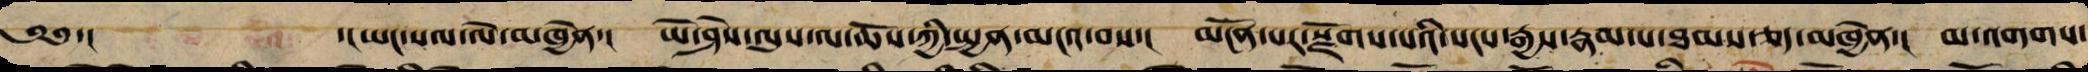༄༅་། ་།ཡང་སལ་ལེ་མཁྱེན་། ཡེ་ཤེས་ལུས་ལ་ཆོས་ཀྱི་སྤྱན་མངའ་བས་། མངོན་པར་སྫོགས་པའི་སངས་རྒྱས་རྣམ་པ་ཐམས་ཅད་མཁྱེན་། མ་འགགས་
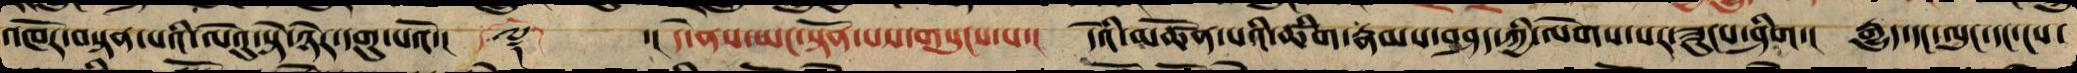འཁོར་བསྟན་པའི་ལེའུ་སྟེ་ཉེར་དགུ་པའོ་།། ༈ ་། དེ་ནས་ཡང་སྟོན་པས་གསུངས་པ་། དེའི་མཚོན་པའི་ཚིག་རྣམས་བཤད་ཀྱི་ལེགས་པར་ཟུངས་ཤིག་། རྒྱུད་དང་ལུང་དང་ངས་
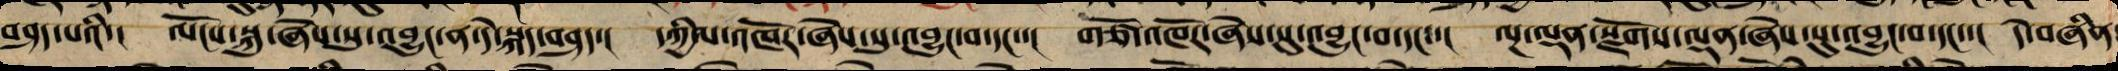བཤད་པའི་། ལོངས་སྐུ་ཞེས་སུ་འབྱུང་ན་དེ་སྐད་བཤད་། དཀྱིལ་འཁོར་ཞེས་སུ་འབྱུང་བ་དང་་། གཙོ་འཁོར་ཞེས་སུ་འབྱུང་བ་དང་་། ལྔ་ལྡན་སྫོགས་ལྡན་ཞེས་སུ་འབྱུང་བ་དང་་། དེ་བཞིན་
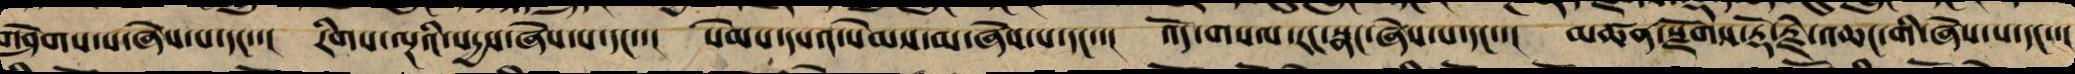གཤེགས་པ་ཞེས་པ་དང་་། རིགས་ལྔའི་སདྱས་ཞེས་པ་དང་་། སེམས་དཔའ་སེམས་མ་ཞེས་པ་དང་་། འོད་གསལ་རང་སྣང་ཞེས་པ་དང་་། མཚན་སྫོགས་རྡོ་རྗེ་འཆང་གིས་ཞེས་པ་དང་་།
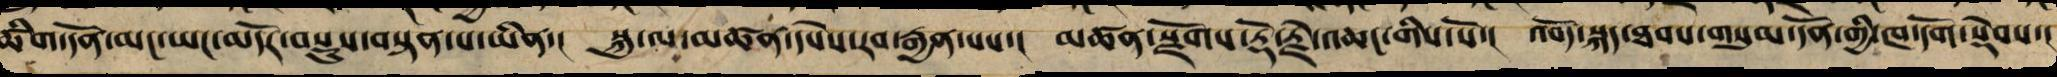ཚིག་དོན་མང་ཡང་མདོར་བསྡུས་བསྟན་པ་ཡིན་། སྐུ་ལ་མཚན་དཔེས་རབ་རྒྱན་པས་། མཚན་སྫོགས་རྡོ་རྗེ་འཆང་གིས་སོ་། འབོད་སྐད་ཐབས་གསུམ་དོན་གྱི་ཁ་དོག་སྡེབས་།
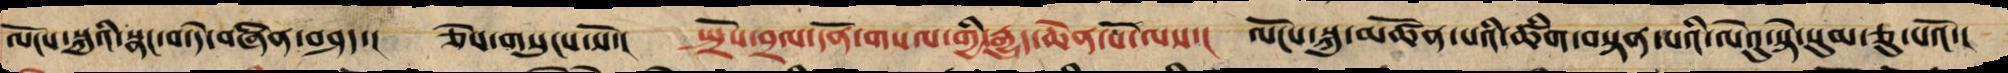ལོངས་སྐུའི་སྣང་བ་དེ་བཞིན་བཤད་། ཅེས་གསུངས་སོ་། སྤྲོས་བྲལ་དོན་གསལ་གྱི་རྒྱུད་ཆེན་པོ་ལས་། ལོངས་སྐུ་མཚོན་པའི་ཚིག་བསྟན་པའི་ལེའུ་སྟེ་སུམ་ཅུ་པའོ་།།
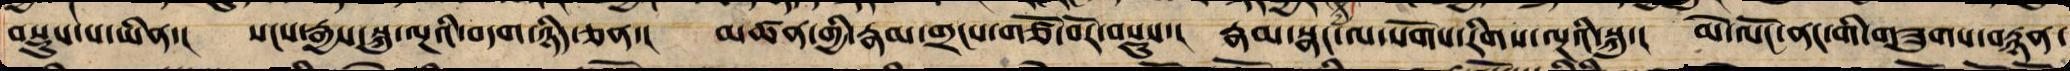བསྡུས་པ་ཡིན་། སངས་རྒྱས་སྐུ་ལྔའི་བདག་ཉིད་ཅན་། མཚན་གྱི་རྣམ་གྲངས་གཙོ་བོར་བསྡུས་། རྣམ་སྣང་ལ་སོགས་རིགས་ལྔའི་སྐུ་། མེ་ལོང་ནང་གི་གཟུགས་བརྙན་
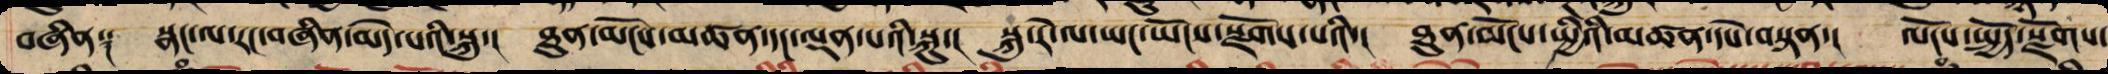བཞིན༑ སྣང་ལ་རང་བཞིན་མེད་པའི་སྐུ་། ཐུན་མོངས་མཚན་དང་ལྡན་པའི་སྐུ་། སྐུ་རེ་ལ་ཡང་ཡོངས་རྫོགས་པའི་། ཐུན་མོང་སྤྱིའི་མཚན་དཔེ་བསྟན་། ལོངས་སྤྱོད་སྫོགས་
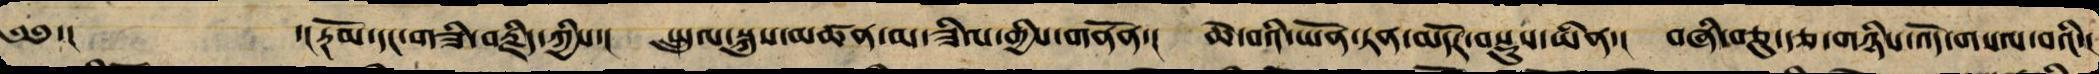༄༅་། ་།རྔོམ་དང་གཟི་བརྗིད་ཀྱིས་། སྤྲུལ་སྐུས་མཚན་མ་ཟིལ་གྱིས་གནོན་། ཆེ་བའི་ཡོན་ཏན་མདོར་བསྡུས་ཡིན་། བཞི་བཅུ་རྩ་གཉིས་འོད་གསལ་བའི་།
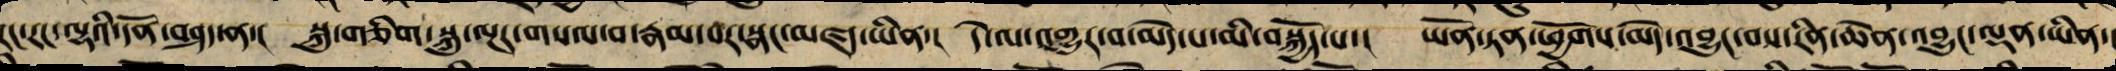རང་རང་ལྷའི་དོན་བཤད་ན་། སྐུ་གཅིག་སྐུ་ལྔར་གསལ་བ་རྣམ་པར་སྣང་མཛད་ཡིན་། དེ་ལ་འགྱུར་བ་མེད་པ་མི་བསྐྱོད་པ་། ཡོན་ཏན་ཕྱོགས་མེད་འབྱུང་བས་རིན་ཆེན་འབྱུང་ལྡན་ཡིན་།
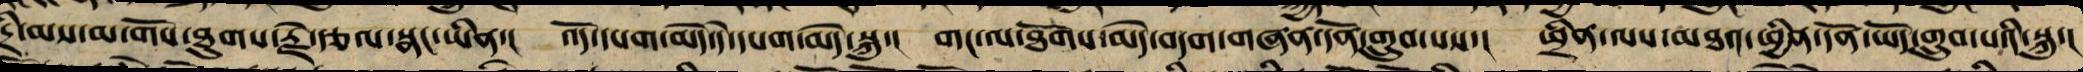དྲི་མས་མ་གོས་ཐུགས་རྗེ་རྩལ་སྣང་ཡིན་། འོད་དཔག་མེད་དེ་དཔག་མེད་སྐུ་། གང་ལ་ཐོགས་མེད་བདག་གཞན་དོན་གྲུབ་པས་། ཕྲིན་ལས་མཐར་ཕྱིན་དོན་ཡོད་གྲུབ་པའི་སྐུ་།
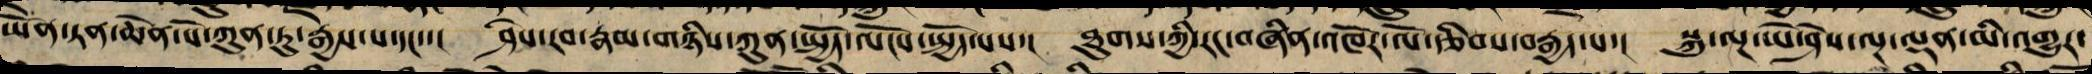ཡོན་ཏན་ཆེན་པོ་ཀུན་ཏུ་རྒྱས་པ་དང་་། ཤེས་རབ་རྣམ་གཉིས་ཀུན་སྤྱོད་ལོངས་སྤྱོད་པས་། ཐུགས་ཀྱི་རང་བཞིན་འཁོར་ལོ་རྩིབས་བརྒྱད་པ་། སྐུ་ལྔ་ཡེ་ཤེས་ལྔ་ལྡན་མི་འགྱུར་
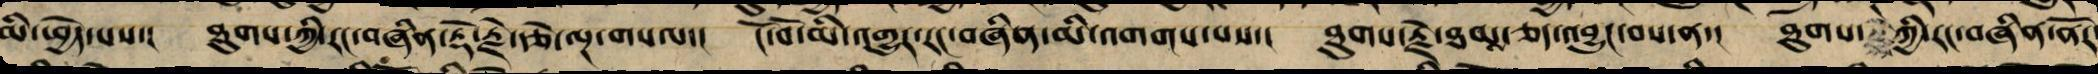མི་ཕྱེད་པས་། ཐུགས་ཀྱི་རང་བཞིན་རྡོ་རྗེ་རྩེ་ལྔ་གསལ་། ངོ་བོ་མི་འགྱུར་རང་བཞིན་མི་འགག་པས་། ཐུགས་རྗེ་ཐམ་ཅད་འབྱུང་བས་ན་། ཐུགས་ ཀྱི་རང་བཞིན་ནོར
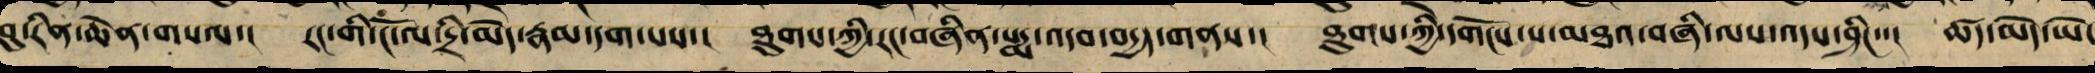བུ་རིན་ཆེན་གསལ་། རང་གི་ངོ་ལ་དྲི་མེད་རྣམ་དག་པས་། ཐུགས་ཀྱི་རང་བཞིན་པདྨ་འདབ་བདྱད་གནས་། ཐུགས་ཀྱི་དགོངས་པ་མཐའ་བཞི་ལས་འདས་ཤིང་་། ཚད་མེད་ཡེ་
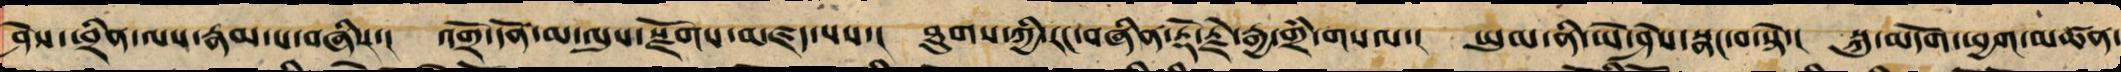ཤེས་ཕྲིན་ལས་རྣམ་པ་བཞིས་། འགྲོ་དོན་མ་ལུས་སྫོགས་མཛད་པས་། ཐུགས་ཀྱི་རང་བཞིན་རྡོ་རྗེ་རྒྱ་གྲཾ་གསལ་། ཡུམ་ནི་ཡེ་ཤེས་སྣང་བ་སྟེ་། སྐུ་མདོག་ཕྱག་མཚན་
